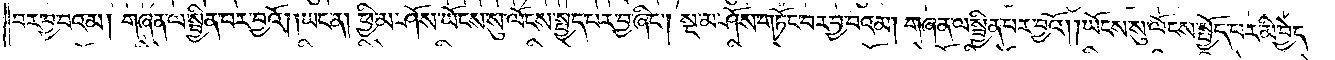བར་བྱ་བའམ། གཞན་ལ་སྦྱིན་པར་བྱའོ། །ཡང་ན། ཕྱི་མ་ཤོས་ཡོངས་སུ་ལོངས་སྤྱད་པར་བྱ་ཞིང༌། སྔ་མ་ཤོས་གཏོང་བར་བྱ་བའམ། གཞན་ལ་སྦྱིན་པར་བྱའོ། །ཡོངས་སུ་ལོངས་སྤྱོད་པར་མི་བྱེད་
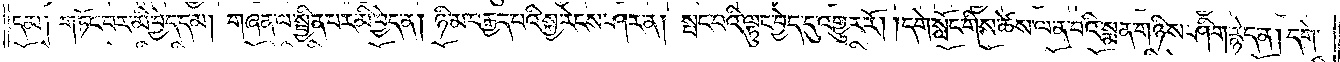དམ༑ གཏོང་བར་མི་བྱེད་དམ། གཞན་ལ་སྦྱིན་པར་མི་བྱེད་ན། ཉི་མ་བརྒྱད་པའི་སྐྱ་རེངས་ཤར་ན། སྤང་བའི་ལྟུང་བྱེད་དུ་འགྱུར་རོ། །དགེ་སློང་གིས་ཚེས་ལ་ན་བའི་སྨན་གཉིས་ཤིག་རྙེད་ན། དགེ་
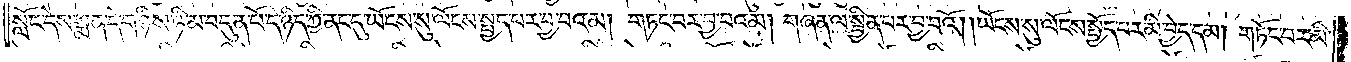སློང་དེས་སྨན་དེ་གཉིས་ཉི་མ་བདུན་པོ་དེ་ཉིད་ཀྱི་ནང་དུ་ཡོངས་སུ་ལོངས་སྤྱད་པར་བྱ་བའམ། གཏང་བར་བྱ་བའམ། གཞན་ལ་སྦྱིན་པར་བྱ་བའོ། །ཡོངས་སུ་ལོངས་སྤྱོད་པར་མི་བྱེད་དམ། གཏོང་བར་མི་
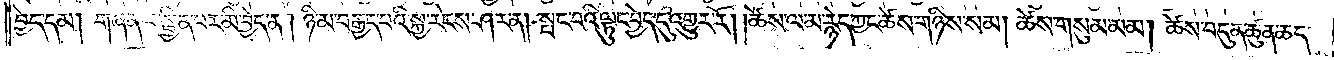བྱེད་དམ། གཞན་ལ་སྦྱིན་པར་མི་བྱེད་ན། ཉི་མ་བརྒྱད་པའི་སྐྱ་རེངས་ཤར་ན། སྤང་བའི་ལྟུང་བྱེད་དུ་འགྱུར་རོ། །ཚེས་ལམ་རྙེད་ཀྱང་ཚེས་གཉིས་སམ། ཚེས་གསུམ་མམ། ཚེས་བདུན་ཚུན་ཆད་
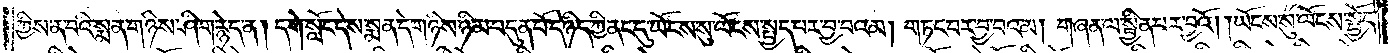ཀྱིས་ན་བའི་སྨན་གཉིས་ཤིག་རྙེད་ན། དགེ་སློང་དེས་སྨན་དེ་གཉིས་ཉི་མ་བདུན་པོ་དེ་ཉིད་ཀྱི་ནང་དུ་ཡོངས་སུ་ལོངས་སྤྱད་པར་བྱ་བའམ། གཏང་བར་བྱ་བའམ། གཞན་ལ་སྦྱིན་པར་བྱའོ། །ཡོངས་སུ་ལོངས་སྤྱོད་
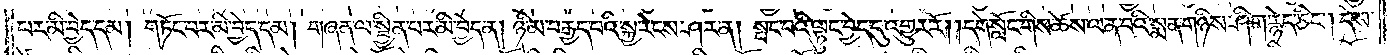པར་མི་བྱེད་དམ། གཏོང་བར་མི་བྱེད་དམ། གཞན་ལ་སྦྱིན་པར་མི་བྱེད་ན། ཉི་མ་བརྒྱད་པའི་སྐྱ་རེངས་ཤར་ན། སྤང་བའི་ལྟུང་བྱེད་དུ་འགྱུར་རོ། །དགེ་སློང་གིས་ཚེས་ལན་པའི་སྨན་གཉིས་ཤིག་རྙེད་ཅིང༌། དེས་
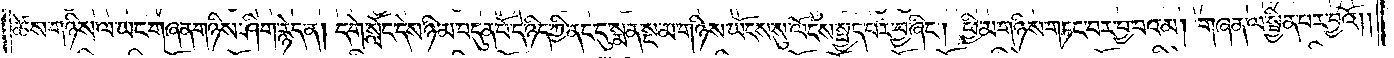ཚེས་གཉིས་ལ་ཡང་གཞན་གཉིས་ཤིག་རྙེད་ན། དགེ་སློང་དེས་ཉི་མ་བདུན་པོ་དེ་ཉིད་ཀྱི་ནང་དུ་སྨན་སྔ་མ་གཉིས་ཡོངས་སུ་ལོངས་སྤྱད་པར་བྱ་ཞིང༌། ཕྱི་མ་གཉིས་གཏང་བར་བྱ་བའམ། གཞན་ལ་སྦྱིན་པར་བྱའོ། །
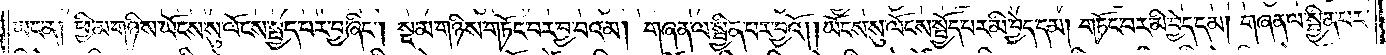ཡང་ན། ཕྱི་མ་གཉིས་ཡོངས་སུ་ལོངས་སྤྱད་པར་བྱ་ཞིང༌། སྔ་མ་གཉིས་གཏོང་བར་བྱ་བའམ། གཞན་ལ་སྦྱིན་པར་བྱའོ། །ཡོངས་སུ་ལོངས་སྤྱོད་པར་མི་བྱེད་དམ། གཏོང་བར་མི་བྱེད་དམ། གཞན་ལ་སྦྱིན་པར་
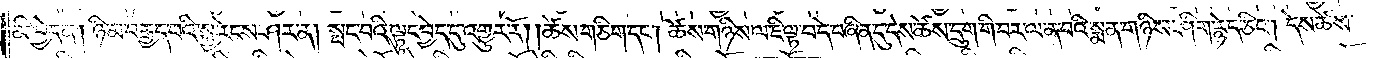མི་བྱེད་ན། ཉི་མ་བརྒྱད་པའི་སྐྱ་རེངས་ཤར་ན། སྤང་བའི་ལྟུང་བྱེད་དུ་འགྱུར་རོ། །ཚེས་གཅིག་དང༌། ཚེས་གཉིས་ལ་ཇི་ལྟ་བ་དེ་བཞིན་དུ་དེས་ཚེས་དྲུག་གི་བར་ལན་པའི་སྨན་གཉིས་ཤིག་རྙེད་ཅིང༌། དེས་ཚེས་
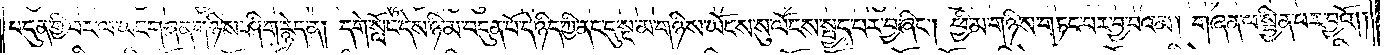བདུན་གྱི་བར་ལ་ཡང་གཞན་གཉིས་ཤིག་རྙེད་ན། དགེ་སློང་དེས་ཉི་མ་བདུན་པོ་དེ་ཉིད་ཀྱི་ནང་དུ་སྔ་མ་གཉིས་ཡོངས་སུ་ལོངས་སྤྱད་པར་བྱ་ཞིང༌། ཕྱི་མ་གཉིས་གཏང་བར་བྱ་བའམ། གཞན་ལ་སྦྱིན་པར་བྱའོ། །
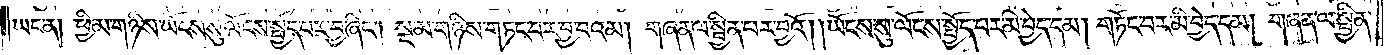ཡང་ན། ཕྱི་མ་གཉིས་ཡོངས་སུ་ལོངས་སྤྱད་པར་བྱ་ཞིང༌། སྔ་མ་གཉིས་གཏང་བར་བྱ་བའམ། གཞན་ལ་སྦྱིན་པར་བྱའོ། །ཡོངས་སུ་ལོངས་སྤྱོད་པར་མི་བྱེད་དམ། གཏོང་བར་མི་བྱེད་དམ། གཞན་ལ་སྦྱིན་
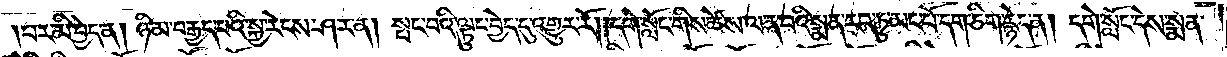པར་མི་བྱེད་ན། ཉི་མ་བརྒྱད་པའི་སྐྱ་རེངས་ཤར་ན། སྤང་བའི་ལྟུང་བྱེད་དུ་འགྱུར་རོ། །དགེ་སློང་གིས་ཚེས་ལ་ན་བའི་སྨན་རབ་ཏུ་མང་པོ་དག་ཅིག་རྙེད་ན། དགེ་སློང་དེས་སྨན་
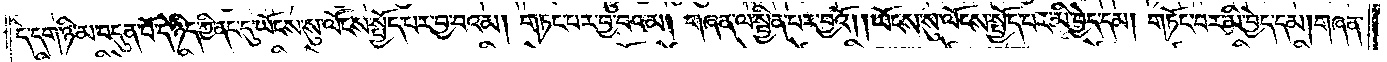དེ་དག་ཉི་མ་བདུན་པོ་དེ་ཉིད་ཀྱི་ནང་དུ་ཡོངས་སུ་ལོངས་སྤྱོད་པར་བྱ་བའམ། གཏང་བར་བྱ་བའམ། གཞན་ལ་སྦྱིན་པར་བྱའོ། །ཡོངས་སུ་ལོངས་སྤྱོད་པར་མི་བྱེད་དམ། གཏོང་བར་མི་བྱེད་དམ། གཞན་
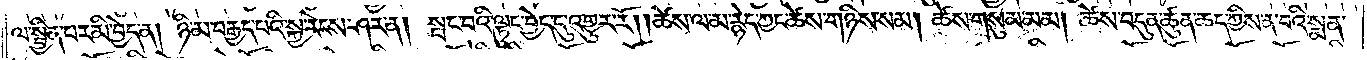ལ་སྦྱིན་པར་མི་བྱེད་ན། ཉི་མ་བརྒྱད་པའི་སྐྱ་རེངས་ཤར་ན། སྤང་པའི་ལྟུང་བྱེད་དུ་འགྱུར་རོ། །ཚེས་ལ་མ་རྙེད་ཀྱང་ཚེས་གཉིས་སམ། ཚེས་གསུམ་མམ། ཚེས་བདུན་ཚུན་ཆད་ཀྱིས་ན་བའི་སྨན་
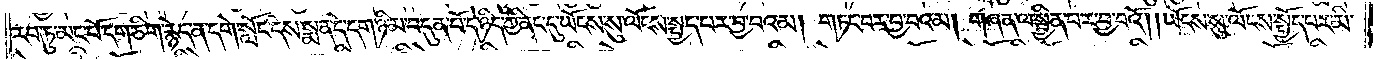རབ་ཏུ་མང་པོ་དག་ཅིག་རྙེད་ན་དགེ་སློང་དེས་སྨན་དེ་དག་ཉི་མ་བདུན་པོ་དེ་ཉིད་ཀྱི་ནང་དུ་ཡོངས་སུ་ལོངས་སྤྱད་པར་བྱ་བའམ། གཏང་བར་བྱ་བའམ། གཞན་ལ་སྦྱིན་པར་བྱ་བའོ། །ཡོངས་སུ་ལོངས་སྤྱོད་པར་མི་
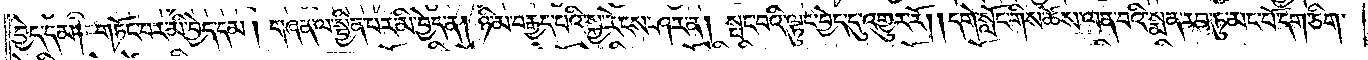བྱེད་དམ། གཏོང་བར་མི་བྱེད་དམ། གཞན་ལ་སྦྱིན་པར་མི་བྱེད་ན། ཉི་མ་བརྒྱད་པའི་སྐྱ་རེངས་ཤར་ན། སྤང་བའི་ལྟུང་བྱེད་དུ་འགྱུར་རོ། །དགེ་སློང་གིས་ཚེས་ལན་པའི་སྨན་རབ་ཏུ་མང་པོ་དག་ཅིག་
